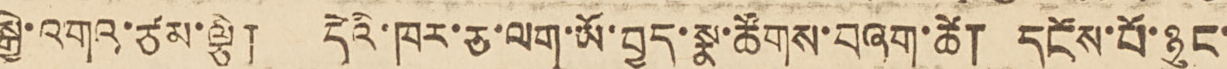སྒྱེ་འགའ་ཙམ་ལྕི། དེའི་ཁར་ཅ་ལག་ཡོ་བྱད་སྣ་ཚོགས་བཞག་ཚེ། དངོས་པོ་ཉུང་
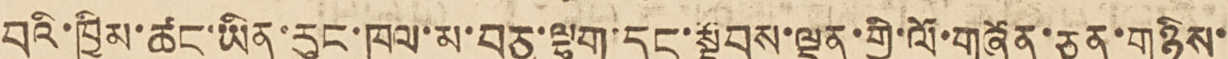བའི་ཁྱིམ་ཚང་ཡིན་རུང་ཁལ་མ་བཅུ་ལྷག་དང་སྟོབས་ལྡན་གྱི་ལོ་གཞོན་ཅན་གཉིས་
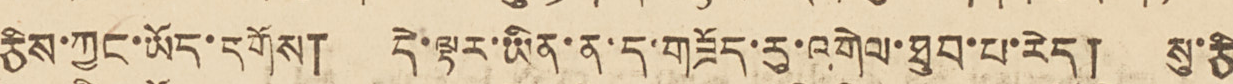ཅིས་ཀྱང་ཡོད་དགོས། དེ་ལྟར་ཡིན་ན་ད་གཟོད་རུ་འགེལ་ཐུབ་པ་རེད། སུ་ཅི
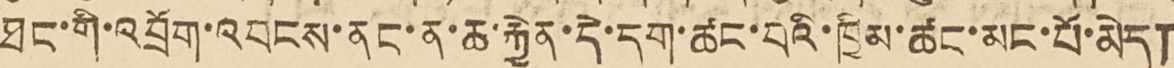ཐང་གི་འབྲོག་འབངས་ནང་ན་ཆ་རྐྱེན་དེ་དག་ཚང་བའི་ཁྱིམ་ཚང་མང་པོ་མེད།
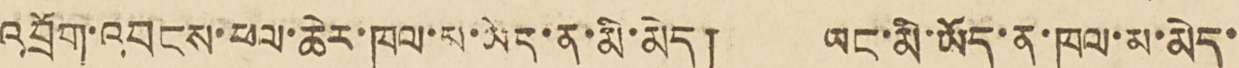འབྲོག་འབངས་ཕལ་ཆེར་ཁལ་མ་ཡོད་ན་མི་མེད། ཡང་མི་ཡོད་ན་ཁལ་མ་མེད་
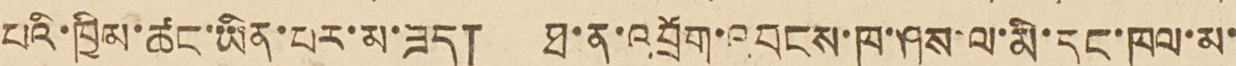པའི་ཁྱིམ་ཚང་ཡིན་པར་མ་ཟད། ཐ་ན་འབྲོག་འབངས་ཁ་ཤས་ལ་མི་དང་ཁལ་མ་
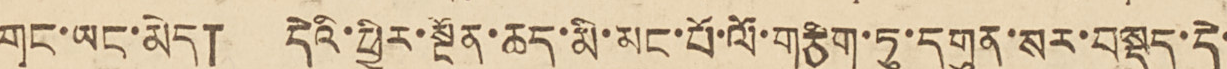གང་ཡང་མེད། དེའི་ཕྱིར་སྔོན་ཆད་མི་མང་པོ་ལོ་གཅིག་ཏུ་དགུན་སར་བསྡད་དེ་
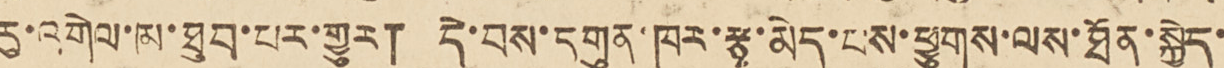རུ་འགེལ་མ་ཐུབ་པར་གྱུར། དེ་བས་དགུན་ཁར་རྩྭ་མེད་པས་ཕྱུགས་ལས་ཐོན་སྐྱེད་
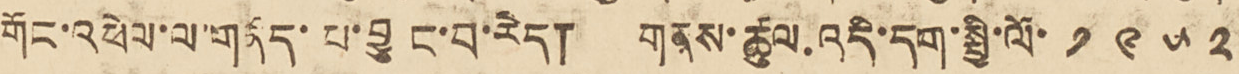གོང་འཕེལ་ལ་གནོད་པ་བྱུང་བ་རེད། གནས་ཚུལ འདི་དག་སྤྱི་ལོ་ ༡ ༩ ༥ ༢
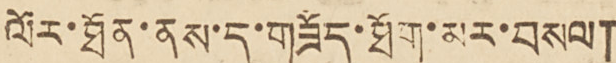ལོར་ཐོན་ནས་ད་གཟོད་ཐོག་མར་བསལ།
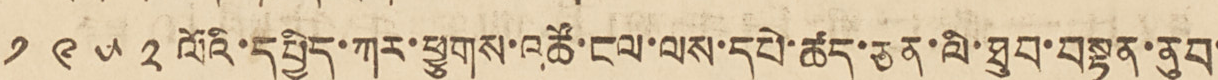༡ ༩ ༥ ༢ ལོའི་དཔྱིད་ཀར་ཕྱུགས་འཚོ་ངལ་ལས་དཔེ་ཚད་ཅན་ལི་ཐུབ་བསྟན་ནུབ་
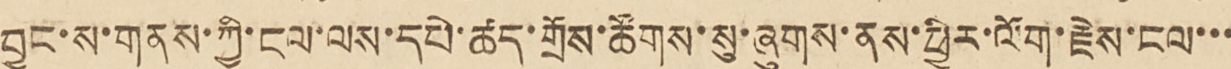བྱང་ས་གནས་ཀྱི་ངལ་ལས་དཔེ་ཚད་གྲོས་ཚོགས་སུ་ཞུགས་ནས་ཕྱིར་ལོག་རྗེས་ངལ་་་
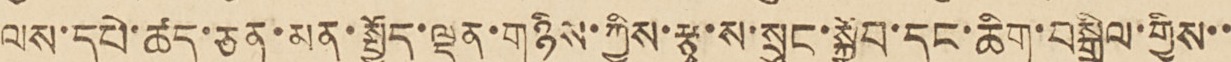ལས་དཔེ་ཚད་ཅན་མན་སྤྱོད་ལྡན་གཉིས་ཀྱིས་རྩྭ་ས་སྲུང་སྐྱོབ་དང་ཆིག་བསྒྲིལ་གྱིས་་
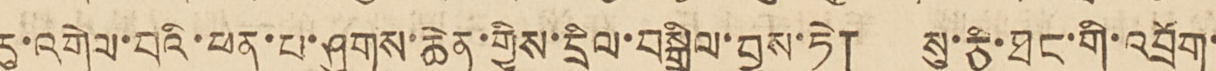རུ་འགེལ་བའི་ཕན་པ་ཤུགས་ཆེན་གྱིས་དྲིལ་བསྒྲིལ་བྱས་ཏེ། སུ་ཅི་ཐང་གི་འབྲོག་
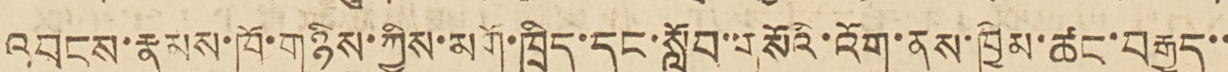འབངས་རྣམས་ཁོ་གཉིས་ཀྱིས་མགོ་ཁྲིད་དང་སློབ་གསོའི་འོག་ནས་ཁྱིམ་ཚང་བརྒྱད་་
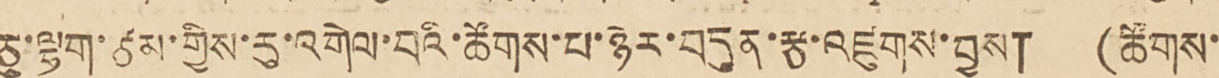ཅུ་ལྷག་ཙམ་གྱིས་རུ་འགེལ་བའི་ཚོགས་པ་ཉེར་བདུན་རྩ་འཛུགས་བྱས། (ཚོགས་
